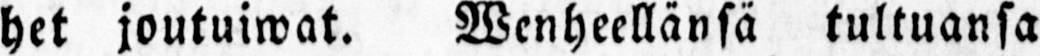het joutuiwat. Wenheellänsä tultuansa
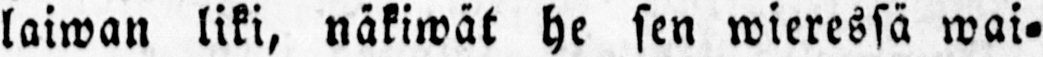laiwan liki, näkiwät he sen wieressä wai-
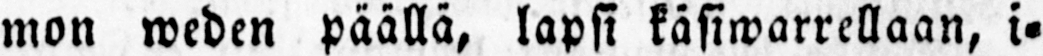mon weden päällä, lapsi käsiwarrellaan, i-
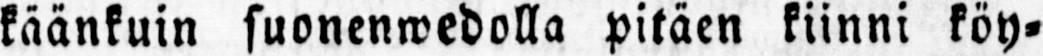käänkuin suonenwedolla pitäen kiinni köy-
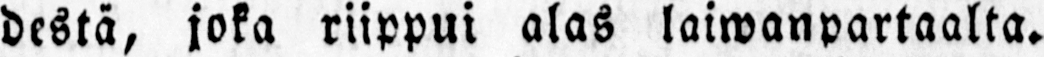destä, joka riippui alas laiwanpartaalta.
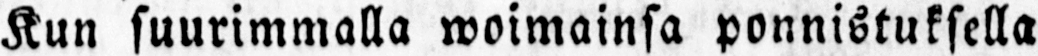Kun suurimmalla woimainsa ponnistuksella
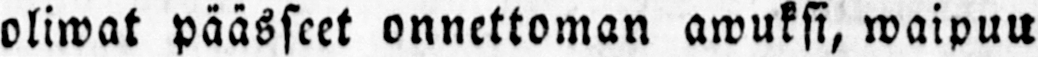oliwat päässeet onnettoman awuksi, waipuu
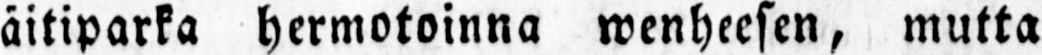äitiparka hermotoinna wenheesen, mutta
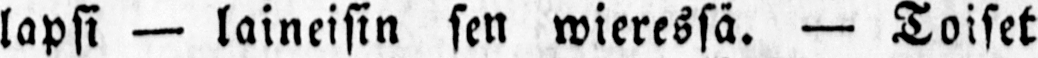lapsi — laineisin sen wieressä. — Toiset
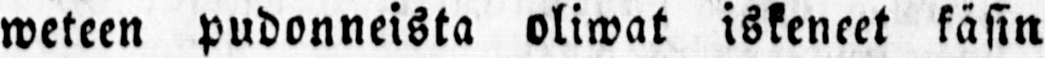weteen pudonneista oliwat iskeneet käsin
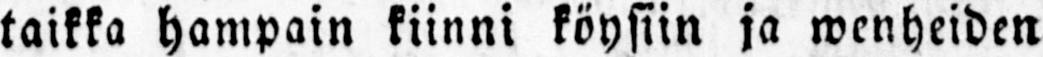taikka hampain kiinni köysiin ja wenheiden
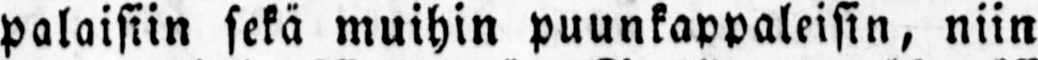palaisiin sekä muihin puunkappaleisin, niin
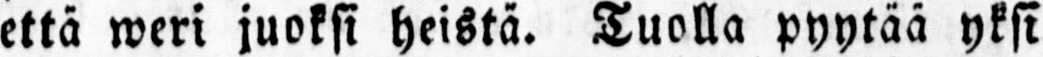että weri juoksi heistä. Tuolla pyytää yksi
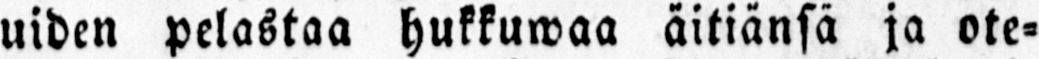uiden pelastaa hukkuwaa äitiänsä ja ote-
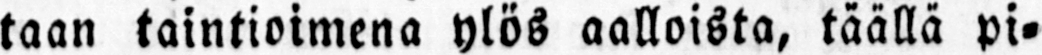taan taintioimena ylös aalloista, täällä pi-
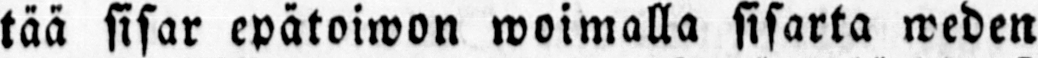tää sisar epätoiwon woimalla sisarta weden
